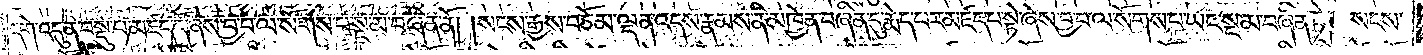དགེ་འདུན་བསྡུ་བ་མཛད་དོ་ཞེས་བྱ་བ་ལ་སོགས་པ་སྔ་མ་བཞིན་ནོ། །སངས་རྒྱས་བཅོམ་ལྡན་འདས་རྣམས་ནི་མཁྱེན་བཞིན་དུ་རྨེད་པར་མཛད་པ་སྟེ་ཞེས་བྱ་བ་ལ་སོགས་པ་ཡང་སྔ་མ་བཞིན་ཏེ། སངས་
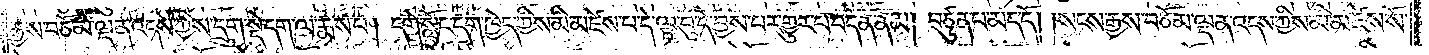རྒྱས་བཅོམ་ལྡན་འདས་ཀྱིས་དྲུག་སྡེ་དག་ལ་རྨས་པ། དགེ་སློང་དག་ཁྱེད་ཀྱིས་མི་མཛེས་པ་དེ་ལྟ་བུ་དེ་བྱས་པར་གྱུར་པ་བདེན་ནམ། བཙུན་པ་མད་དོ། །སངས་རྒྱས་བཅོམ་ལྡན་འདས་ཀྱིས་མི་མཛེས་སོ་
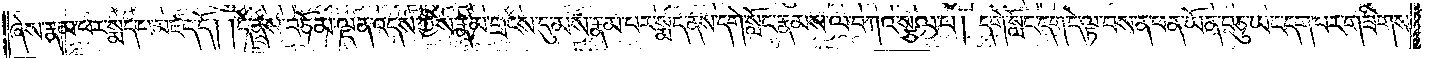ཞེས་རྣམ་པར་སྨད་པ་མཛད་དོ། །དེ་ནས་བཅོམ་ལྡན་འདས་ཀྱིས་རྣམ་གྲངས་དུ་མས་རྣམ་པར་སྨད་ནས་དགེ་སློང་རྣམས་ལ་བཀའ་སྩལ་པ། དགེ་སློང་དག་དེ་ལྟ་བས་ན་ཕན་ཡོན་བཅུ་ཡང་དག་པར་གཟིགས་
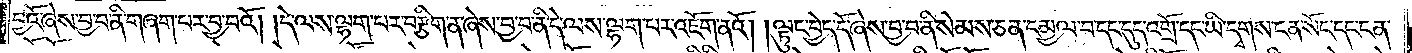བྱའོ་ཞེས་བྱ་བ་ནི་གཞག་པར་བྱ་བའོ། །དེ་ལས་ལྷག་པར་བརྩིག་ན་ཞེས་བྱ་བ་ནི་དེ་ལས་ལྷག་པར་འཇོག་ནའོ། །ལྟུང་བྱེད་དོ་ཞེས་བྱ་བ་ནི་སེམས་ཅན་དམྱལ་བ་དང་དུད་འགྲོ་དང་ཡི་དྭགས་ངན་སོང་དང་ངན་
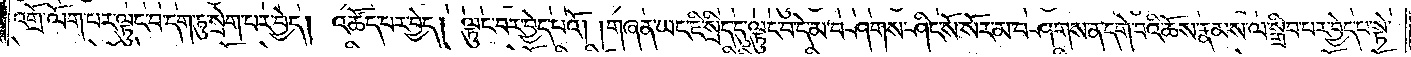འགྲོ་ལོག་པར་ལྟུང་བ་དག་ཏུ་སྲེག་པར་བྱེད། འཚོད་པར་བྱེད། ལྟུང་བར་བྱེད་པའོ། །གཞན་ཡང་ཇི་སྲིད་དུ་ལྟུང་བ་དེ་མ་བཤགས་ཤིང་སོ་སོར་མ་བཤགས་ན་དགེ་བའི་ཆོས་རྣམས་ལ་སྒྲིབ་པར་བྱེད་པ་སྟེ་
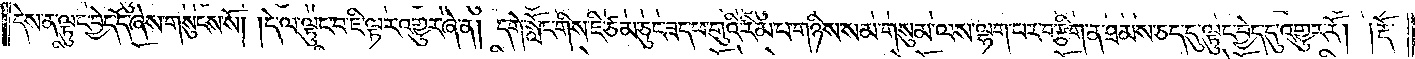དེས་ན་ལྟུང་བྱེད་དོ་ཞེས་གསུངས་སོ། །དེ་ལ་ལྟུང་བ་ཇི་ལྟར་འགྱུར་ཞེ་ན། དགེ་སློང་གིས་ཇི་ཙམ་ཅུང་ཟད་ཕ་གུའི་རིམ་པ་གཉིས་སམ་གསུམ་ལས་ལྷག་པར་བརྩིག་ན་ཐམས་ཅད་དུ་ལྟུང་བྱེད་དུ་འགྱུར་རོ། །རྡོ་
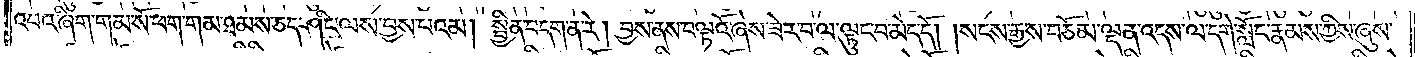འབའ་ཞིག་གམ་སོ་ཕག་གམ་ཐམས་ཅད་ཤིང་ལས་བྱས་པའམ། སྦྱིན་བདག་ན་རེ། བྱས་ནས་བལྟའོ་ཞེས་ཟེར་བ་ལ་ལྟུང་བ་མེད་དོ། །སངས་རྒྱས་བཅོམ་ལྡན་འདས་ལ་དགེ་སློང་རྣམས་ཀྱིས་ཞུས་
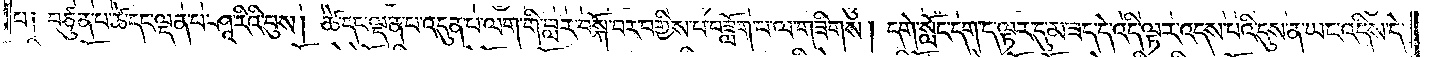པ༑ བཙུན་པ་ཚེ་དང་ལྡན་པ་ཤཱ་རིའི་བུས། ཚེ་དང་ལྡན་པ་འདུན་པ་ལག་གི་བླར་བསྐོ་བར་བགྱིས་པ་བཟློག་པ་ལ་གཟིགས། དགེ་སློང་དག་ད་ལྟར་དུ་མ་ཟད་དེ་འདི་ལྟར་འདས་པའི་དུས་ན་ཡང་འདིས་དེ་
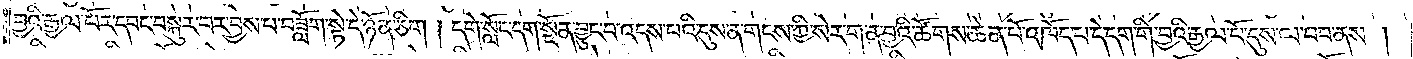བྱའི་རྒྱལ་པོར་དབང་བསྐུར་བར་བྱས་པ་བཟློག་སྟེ་དེ་ཉོན་ཅིག །དགེ་སློང་དག་སྔོན་བྱུང་བ་འདས་པའི་དུས་ན་གངས་ཀྱི་སེར་ག་ན་བྱའི་ཚོགས་ཆེན་པོ་འཁོད་པ་དེ་དག་གི་བྱའི་རྒྱལ་པོ་དུས་ལ་བབ་ནས།
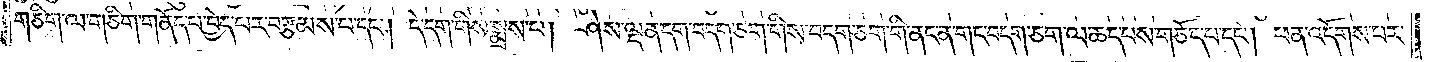གཅིག་ལ་གཅིག་གནོད་པ་བྱེད་པར་བརྩམས་པ་དང༌། དེ་དག་གིས་སྨྲས་པ། ཤེས་ལྡན་བདག་ཅག་གིས་བདག་ཅག་གིས་ནང་ན་གང་བདག་ཅག་ལ་ཆད་པས་གཅོད་པ་དང༌། ཕན་འདོགས་པར་
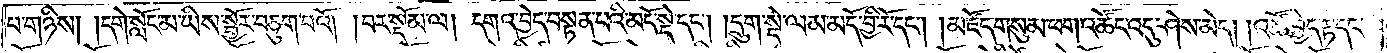པ་གཉིས། །དགེ་སློང་མ་ཡིས་སྦྱོར་བཅུག་པའོ།    །བར་སྡོམ་ལ། དགའ་བྱེད་བསྟན་པའི་མདོ་སྡེ་དང༌། །དྲུག་སྡེ་ལམ་མདོ་བྱི་རོ་དང༌། མཛོད་གསུམ་ཕག་འཚོང་འདུ་ཤེས་མེད། །འཚོ་བྱེད་རྟ་དང་
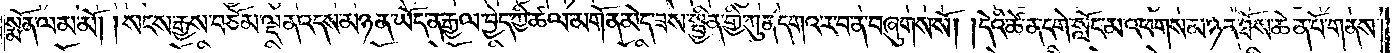སྨོན་ལམ་མོ། །སངས་རྒྱས་བཅོམ་ལྡན་འདས་མཉན་ཡོད་ན་རྒྱལ་བྱེད་ཀྱི་ཚལ་མགོན་མེད་ཟས་སྦྱིན་གྱི་ཀུན་དགའ་ར་བ་ན་བཞུགས་སོ། །དེའི་ཚེ་ན་དགེ་སློང་མ་འཕགས་མ་ཉན་ཐོས་ཆེན་པོ་གནས་
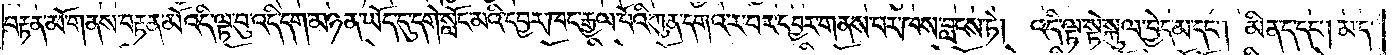བརྟན་མོ་གནས་བརྟན་མོ་འདི་ལྟ་བུ་འདི་དག་མཉན་ཡོད་དུ་དགེ་སློང་མའི་དབྱར་ཁང་རྒྱལ་པོའི་ཀུན་དགའ་ར་བར་དབྱར་གནས་པར་ཁས་བླངས་ཏེ། འདི་ལྟ་སྟེ་སྐུལ་བྱེད་མ་དང༌། མིན་ད་དང༌། མ་ད་
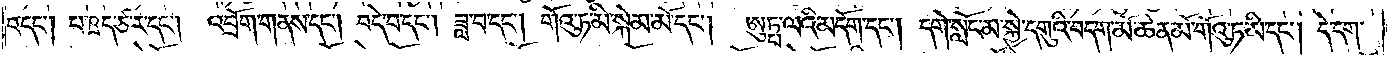བ་དང༌། བ་ཋད་ཙ་ར་དང༌། འབྲོག་གནས་དང༌། བདེ་བ་དང༌། ཟླ་བ་དང༌། གོའུ་ཏ་མི་སྐེམ་མོ་དང༌། ཨུཏྤ་ལའི་མདོག་དང༌། དགེ་སློང་མ་སྐྱེ་དགུའི་བདག་མོ་ཆེན་པོ་གོའུ་ཏ་མི་དང༌། དེ་དག་
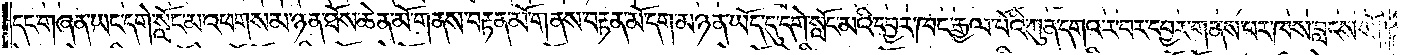དང་གཞན་ཡང་དགེ་སློང་མ་འཕགས་མ་ཉན་ཐོས་ཆེན་མོ་གནས་བརྟན་མོ་གནས་བརྟན་མོ་དག་མཉན་ཡོད་དུ་དགེ་སློང་མའི་དབྱར་ཁང་རྒྱལ་པོའི་ཀུན་དགའ་ར་བར་དབྱར་གནས་པར་ཁས་བླངས་སོ༎
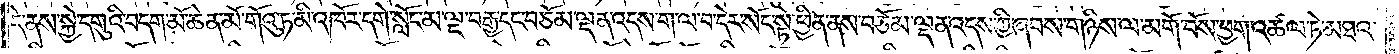དེ་ནས་སྐྱེ་དགུའི་བདག་མོ་ཆེན་མོ་གོའུ་ཏ་མི་འཁོར་དགེ་སློང་མ་ལྔ་བརྒྱ་དང་བཅོམ་ལྡན་འདས་ག་ལ་བ་དེར་སོང་སྟེ་ཕྱིན་ནས་བཅོམ་ལྡན་འདས་ཀྱི་ཞབས་གཉིས་ལ་མགོ་བོས་ཕྱག་འཚལ་ཏེ་མཐའ་
